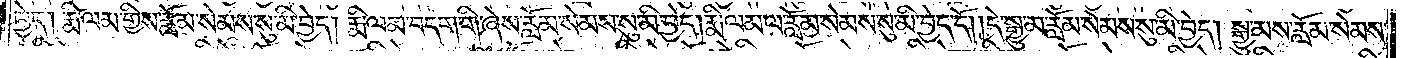བྱེད། རྨི་ལམ་གྱིས་རློམ་སེམས་སུ་མི་བྱེད། རྨི་ལམ་བདག་གི་ཞེས་རློམ་སེམས་སུ་མི་བྱེད། རྨི་ལམ་ལ་རློམ་སེམས་སུ་མི་བྱེད་དོ། །དེ་སྒྱུ་མ་རློམ་སེམས་སུ་མི་བྱེད། སྒྱུ་མས་རློམ་སེམས་
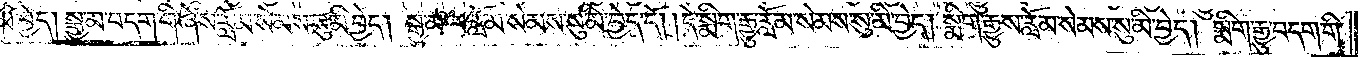མི་བྱེད། སྒྱུ་མ་བདག་གི་ཞེས་རློམ་སེམས་སུ་མི་བྱེད། སྒྱུ་མ་ལ་རློམ་སེམས་སུ་མི་བྱེད་དོ། །དེ་སྨིག་རྒྱུ་རློམ་སེམས་སུ་མི་བྱེད། སྨིག་རྒྱུས་རློམ་སེམས་སུ་མི་བྱེད། སྨིག་རྒྱུ་བདག་གི་
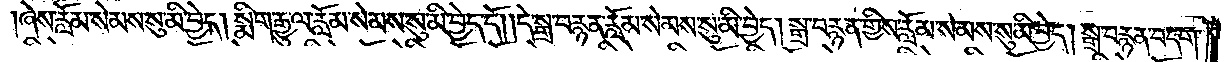ཞེས་རློམ་སེམས་སུ་མི་བྱེད། སྨིག་རྒྱུ་ལ་རློམ་སེམས་སུ་མི་བྱེད་དོ། །དེ་སྒྲ་བརྙན་རློམ་སེམས་སུ་མི་བྱེད། སྒྲ་བརྙན་གྱིས་རློམ་སེམས་སུ་མི་བྱེད། སྒྲ་བརྙན་བདག་
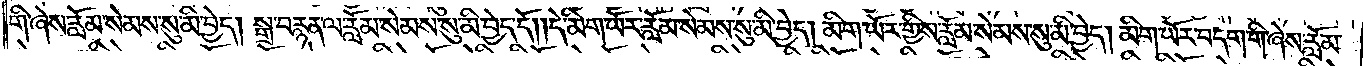གི་ཞེས་རློམ་སེམས་སུ་མི་བྱེད། སྒྲ་བརྙན་ལ་རློམ་སེམས་སུ་མི་བྱེད་དོ། །དེ་མིག་ཡོར་རློམ་སེམས་སུ་མི་བྱེད། མིག་ཡོར་གྱིས་རློམ་སེམས་སུ་མི་བྱེད། མིག་ཡོར་བདག་གི་ཞེས་རློམ་
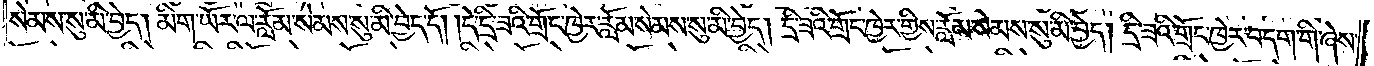སེམས་སུ་མི་བྱེད། མིག་ཡོར་ལ་རློམ་སེམས་སུ་མི་བྱེད་དོ། །དེ་དྲི་ཟའི་གྲོང་ཁྱེར་རློམ་སེམས་སུ་མི་བྱེད། དྲི་ཟའི་གྲོང་ཁྱེར་གྱིས་རློམ་སེམས་སུ་མི་བྱེད། དྲི་ཟའི་གྲོང་ཁྱེར་བདག་གི་ཞེས་
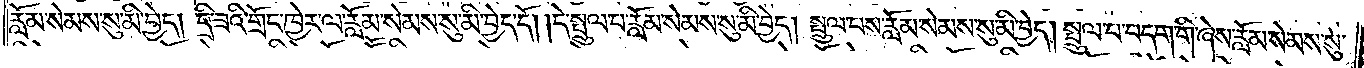རློམ་སེམས་སུ་མི་བྱེད། དྲི་ཟའི་གྲོང་ཁྱེར་ལ་རློམ་སེམས་སུ་མི་བྱེད་དོ། །དེ་སྤྲུལ་པ་རློམ་སེམས་སུ་མི་བྱེད། སྤྲུལ་པས་རློམ་སེམས་སུ་མི་བྱེད། སྤྲུལ་པ་བདག་གི་ཞེས་རློམ་སེམས་སུ་
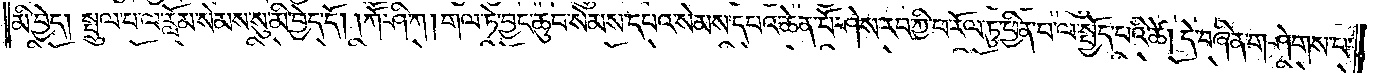མི་བྱེད། སྤྲུལ་པ་ལ་རློམ་སེམས་སུ་མི་བྱེད་དོ། །ཀཽ་ཤི་ཀ། གལ་ཏེ་བྱང་ཆུབ་སེམས་དཔའ་སེམས་དཔའ་ཆེན་པོ་ཤེས་རབ་ཀྱི་ཕ་རོལ་ཏུ་ཕྱིན་པ་ལ་སྤྱོད་པའི་ཚེ། དེ་བཞིན་གཤེགས་པ་
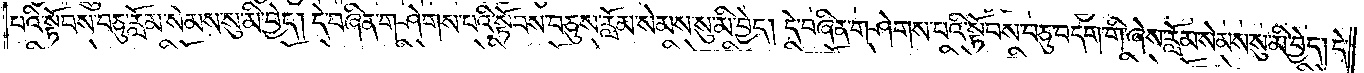པའི་སྟོབས་བཅུ་རློམ་སེམས་སུ་མི་བྱེད། དེ་བཞིན་གཤེགས་པའི་སྟོབས་བཅུས་རློམ་སེམས་སུ་མི་བྱེད། དེ་བཞིན་གཤེགས་པའི་སྟོབས་བཅུ་བདག་གི་ཞེས་རློམ་སེམས་སུ་མི་བྱེད། དེ་
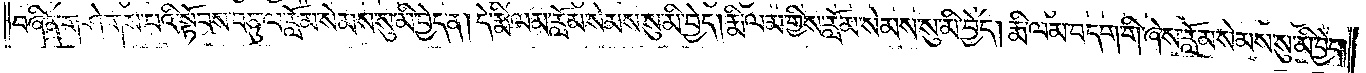བཞིན་གཤེགས་པའི་སྟོབས་བཅུ་ལ་རློམ་སེམས་སུ་མི་བྱེད་ན། དེ་རྨི་ལམ་རློམ་སེམས་སུ་མི་བྱེད། རྨི་ལམ་གྱིས་རློམ་སེམས་སུ་མི་བྱེད། རྨི་ལམ་བདག་གི་ཞེས་རློམ་སེམས་སུ་མི་བྱེད།
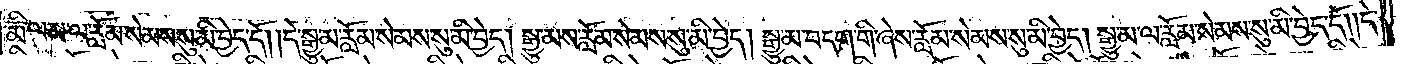རྨི་ལམ་ལ་རློམ་སེམས་སུ་མི་བྱེད་དོ། །དེ་སྒྱུ་མ་རློམ་སེམས་སུ་མི་བྱེད། སྒྱུ་མས་རློམ་སེམས་སུ་མི་བྱེད། སྒྱུ་མ་བདག་གི་ཞེས་རློམ་སེམས་སུ་མི་བྱེད། སྒྱུ་མ་ལ་རློམ་སེམས་སུ་མི་བྱེད་དོ། །དེ་
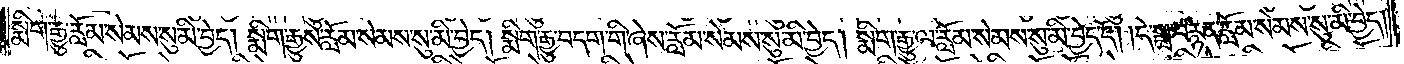སྨིག་རྒྱུ་རློམ་སེམས་སུ་མི་བྱེད། སྨིག་རྒྱུས་རློམ་སེམས་སུ་མི་བྱེད། སྨིག་རྒྱུ་བདག་གི་ཞེས་རློམ་སེམས་སུ་མི་བྱེད། སྨིག་རྒྱུ་ལ་རློམ་སེམས་སུ་མི་བྱེད་དོ། །དེ་སྒྲ་བརྙན་རློམ་སེམས་སུ་མི་བྱེད།
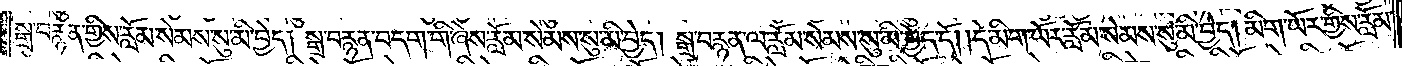སྒྲ་བརྙན་གྱིས་རློམ་སེམས་སུ་མི་བྱེད། སྒྲ་བརྙན་བདག་གི་ཞེས་རློམ་སེམས་སུ་མི་བྱེད། སྒྲ་བརྙན་ལ་རློམ་སེམས་སུ་མི་བྱེད་དོ། །དེ་མིག་ཡོར་རློམ་སེམས་སུ་མི་བྱེད། མིག་ཡོར་གྱིས་རློམ་
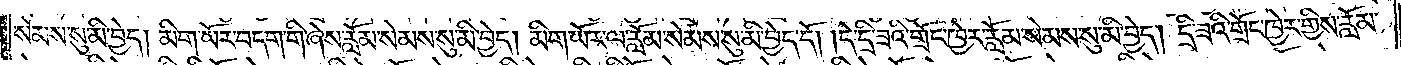སེམས་སུ་མི་བྱེད། མིག་ཡོར་བདག་གི་ཞེས་རློམ་སེམས་སུ་མི་བྱེད། མིག་ཡོར་ལ་རློམ་སེམས་སུ་མི་བྱེད་དོ། །དེ་དྲི་ཟའི་གྲོང་ཁྱེར་རློམ་སེམས་སུ་མི་བྱེད། དྲི་ཟའི་གྲོང་ཁྱེར་གྱིས་རློམ་
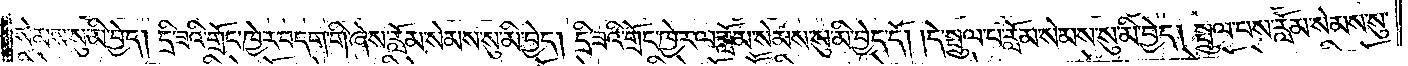སེམས་སུ་མི་བྱེད། དྲི་ཟའི་གྲོང་ཁྱེར་བདག་གི་ཞེས་རློམ་སེམས་སུ་མི་བྱེད། དྲི་ཟའི་གྲོང་ཁྱེར་ལ་རློམ་སེམས་སུ་མི་བྱེད་དོ། །དེ་སྤྲུལ་པ་རློམ་སེམས་སུ་མི་བྱེད། སྤྲུལ་པས་རློམ་སེམས་སུ་
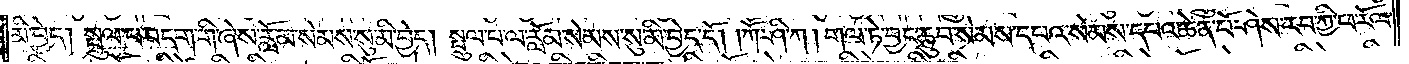མི་བྱེད། སྤྲུལ་པ་བདག་གི་ཞེས་རློམ་སེམས་སུ་མི་བྱེད། སྤྲུལ་པ་ལ་རློམ་སེམས་སུ་མི་བྱེད་དོ། །ཀཽ་ཤི་ཀ། གལ་ཏེ་བྱང་ཆུབ་སེམས་དཔའ་སེམས་དཔའ་ཆེན་པོ་ཤེས་རབ་ཀྱི་ཕ་རོལ་
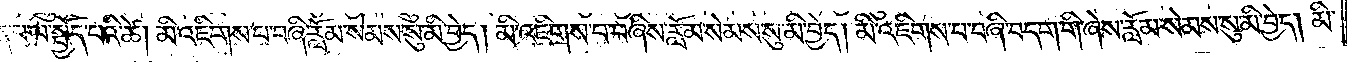ཏུ་ཕྱིན་པ་ལ་སྤྱོད་པའི་ཚེ། མི་འཇིགས་པ་བཞི་རློམ་སེམས་སུ་མི་བྱེད། མི་འཇིགས་པ་བཞིས་རློམ་སེམས་སུ་མི་བྱེད། མི་འཇིགས་པ་བཞི་བདག་གི་ཞེས་རློམ་སེམས་སུ་མི་བྱེད། མི་
